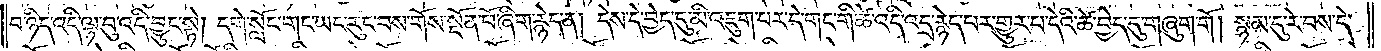བ་ཉིད་འདི་ལྟ་བུ་འདི་བྱུང་སྟེ། དགེ་སློང་གང་ཡང་རུང་བས་གོས་སྔོན་པོ་ཞིག་རྙེད་ན། དེས་དེ་བྱེད་དུ་མི་འཇུག་པར་དེ་གང་གི་ཚེ་འདི་འདྲ་རྙེད་པར་གྱུར་པ་དེའི་ཚེ་བྱེད་དུ་གཞུག་གོ། སྙམ་དུ་རེ་བས་དེ་
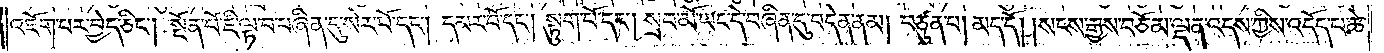འཇོག་པར་བྱེད་ཅིང༌། སྔོན་པོ་ཇི་ལྟ་བ་བཞིན་དུ་སེར་པོ་དང༌། དམར་པོ་དང༌། སྟུག་པོ་དང༌། སྲབ་མོ་ཡང་དེ་བཞིན་དུ་བདེན་ནམ། བཙུན་པ། མད་དོ། །སངས་རྒྱས་བཅོམ་ལྡན་འདས་ཀྱིས་འདོད་པ་ཆེ་
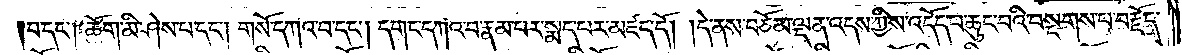བ་དང༌། ཆོག་མི་ཤེས་པ་དང༌། གསོ་དཀའ་བ་དང༌། དགང་དཀའ་བ་རྣམ་པར་སྨད་པར་མཛད་དོ། །དེ་ནས་བཅོམ་ལྡན་འདས་ཀྱིས་འདོད་པ་ཆུང་བའི་བསྔགས་པ་བརྗོད་
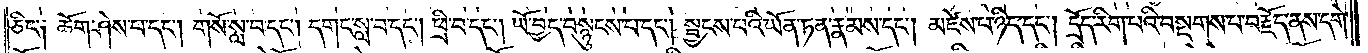ཅིང༌། ཆོག་ཤེས་པ་དང༌། གསོ་སླ་བ་དང༌། དགང་སླ་བ་དང༌། ཕྲི་བ་དང༌། ཡོ་བྱད་བསྙུངས་པ་དང༌། སྦྱངས་པའི་ཡོན་ཏན་རྣམས་དང༌། མཛེས་པ་ཉིད་དང༌། དྲོད་རིག་པའི་བསྔགས་པ་བརྗོད་ནས་དགེ་
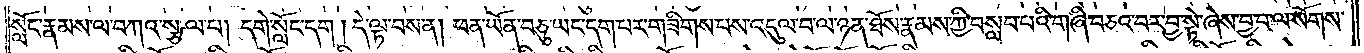སློང་རྣམས་ལ་བཀའ་སྩལ་པ། དགེ་སློང་དག །དེ་ལྟ་བས་ན། ཕན་ཡོན་བཅུ་ཡང་དག་པར་གཟིགས་པས་འདུལ་བ་ལ་ཉན་ཐོས་རྣམས་ཀྱིས་བསླབ་པའི་གཞི་བཅའ་བར་བྱ་སྟེ་ཞེས་བྱ་བ་ལ་སོགས་
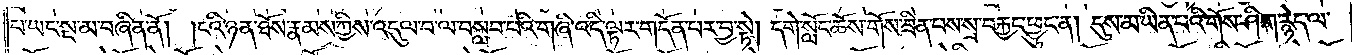པ་ཡང་སྔ་མ་བཞིན་ནོ། །ངའི་ཉན་ཐོས་རྣམས་ཀྱིས་འདུལ་བ་ལ་བསླབ་པའི་གཞི་འདི་ལྟར་གདོན་པར་བྱ་སྟེ། དགེ་སློང་ཆོས་གོས་ཟིན་པས་སྲ་བརྐྱང་ཕྱུར་ན། དུས་མ་ཡིན་པའི་གོས་ཤིག་རྙེད་ལ་
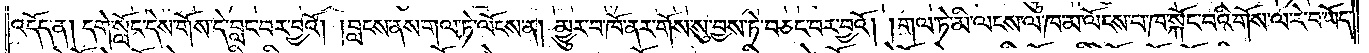འདོད་ན། དགེ་སློང་དེས་གོས་དེ་བླང་བར་བྱའོ། །བླངས་ནས་གལ་ཏེ་ལོངས་ན། མྱུར་བ་ཁོ་ནར་གོས་སུ་བྱས་ཏེ་བཅང་བར་བྱའོ། །གལ་ཏེ་མི་ལངས་ལ་ཁ་མ་ལོངས་པ་ཁ་སྐོང་བའི་གོས་ལ་རེ་བ་ཡོད་
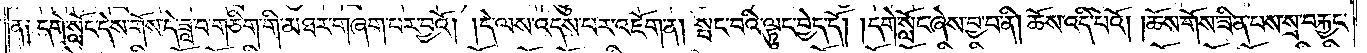ན༑ དགེ་སློང་དེས་གོས་དེ་ཟླ་བ་གཅིག་གི་མཐར་གཞག་པར་བྱའོ། །དེ་ལས་འདས་པར་འཇོག་ན། སྤང་བའི་ལྟུང་བྱེད་དོ། །དགེ་སློང་ཞེས་བྱ་བ་ནི། ཆོས་འདི་པའོ། །ཆོས་གོས་ཟིན་པས་སྲ་བརྐྱང་
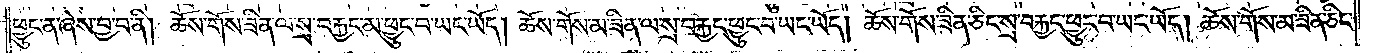ཕྱུང་ན་ཞེས་བྱ་བ་ནི། ཆོས་གོས་ཟིན་ལ་སྲ་བརྐྱང་མ་ཕྱུང་བ་ཡང་ཡོད། ཆོས་གོས་མ་ཟིན་ལ་སྲ་བརྐྱང་ཕྱུང་བ་ཡང་ཡོད། ཆོས་གོས་ཟིན་ཅིང་སྲ་བརྐྱང་ཕྱུང་བ་ཡང་ཡོད། ཆོས་གོས་མ་ཟིན་ཅིང་
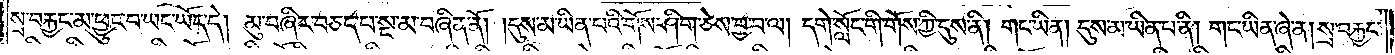སྲ་བརྐྱང་མ་ཕྱུང་བ་ཡང་ཡོད་དེ། མུ་བཞིར་བཅད་པ་སྔ་མ་བཞིན་ནོ། །དུས་མ་ཡིན་པའི་གོས་ཤིག་ཅེས་བྱ་བ་ལ། དགེ་སློང་གི་གོས་ཀྱི་དུས་ནི། གང་ཡིན། དུས་མ་ཡིན་པ་ནི། གང་ཡིན་ཞེ་ན། སྲ་བརྐྱང་
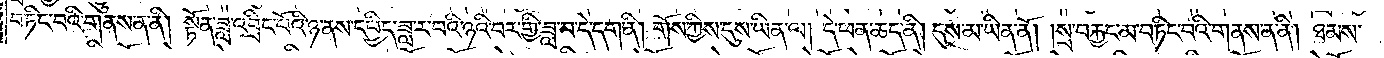བཏིང་བའི་གནས་ན་ནི། སྟོན་ཟླ་འབྲིང་པོའི་ཉ་ནས་དཔྱིད་ཟླ་ར་བའི་ཉའི་བར་གྱི་ཟླ་བ་དེ་དག་ནི། གོས་ཀྱིས་དུས་ཡིན་ལ། དེ་ཕན་ཆད་ནི། དུས་མ་ཡིན་ནོ། །སྲ་བརྐྱང་མ་བཏིང་བའི་གནས་ན་ནི། ཐམས་
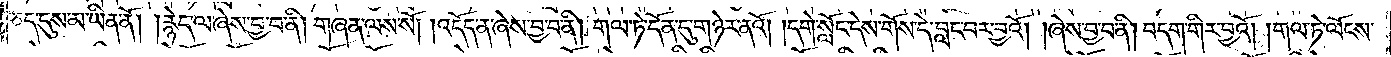ཅད་དུས་མ་ཡིན་ནོ། །རྙེད་ལ་ཞེས་བྱ་བ་ནི། གཞན་ལས་སོ། །འདོད་ན་ཞེས་བྱ་བ་ནི། གལ་ཏེ་དོན་དུ་གཉེར་ནའོ། །དགེ་སློང་དེས་གོས་དེ་བླང་བར་བྱའོ། །ཞེས་བྱ་བ་ནི། བདག་གིར་བྱའོ། །གལ་ཏེ་ལོངས་
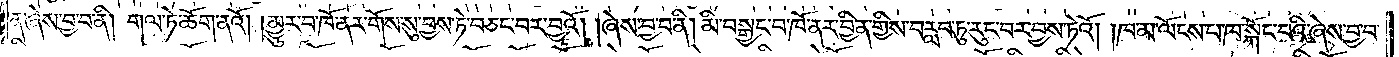ན་ཞེས་བྱ་བ་ནི། གལ་ཏེ་ཆོག་ནའོ། །མྱུར་བ་ཁོ་ནར་གོས་སུ་བྱས་ཏེ་བཅང་བར་བྱའོ། །ཞེས་བྱ་བ་ནི། མི་བསྒྱང་བ་ཁོ་ནར་བྱིན་གྱིས་བརླབ་ཏུ་རུང་བར་བྱས་ཏེའོ། །ཁ་མ་ལོངས་པ་ཁ་སྐོང་བའི་ཞེས་བྱ་བ་
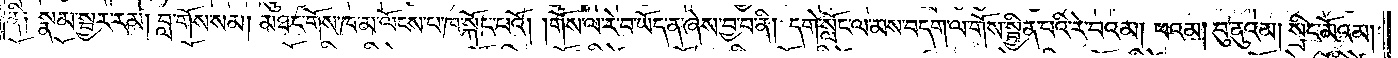ནི། སྣམ་སྦྱར་རམ། བླ་གོས་སམ། མཐང་གོས་ཁ་མ་ལོངས་པ་ཁ་སྐོང་བའོ། །གོས་ལ་རེ་བ་ཡོད་ན་ཞེས་བྱ་བ་ནི། དགེ་སློང་ལ་མས་བདག་ལ་གོས་སྦྱིན་པའི་རེ་བའམ། ཕའམ། བུ་ནུའམ། སྲིང་མོའམ།
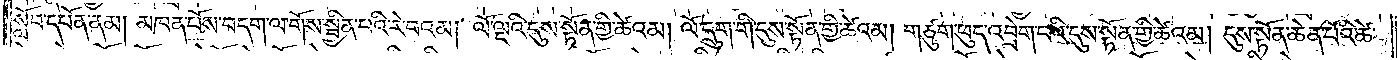སློབ་དཔོན་ནམ། མཁན་པོས་བདག་ལ་གོས་སྦྱིན་པའི་རེ་བའམ། ལོ་ལྔའི་དུས་སྟོན་གྱི་ཚེའམ། ལོ་དྲུག་གི་དུས་སྟོན་གྱི་ཚེའམ། གཙུག་ཕུད་འབྲེག་པའི་དུས་སྟོན་གྱི་ཚེའམ། དུས་སྟོན་ཆེན་པོའི་ཆེ་
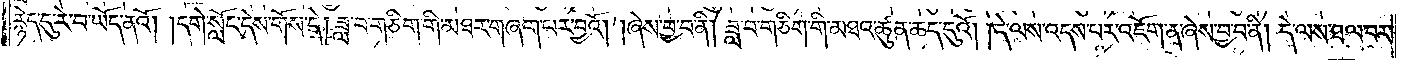རྙེད་དུ་རེ་བ་ཡོད་ནའོ། །དགེ་སློང་དེས་གོས་དེ། ཟླ་བ་གཅིག་གི་མཐར་གཞག་པར་བྱའོ། །ཞེས་བྱ་བ་ནི། ཟླ་བ་གཅིག་གི་མཐའ་ཚུན་ཆད་དུའོ། །དེ་ལས་འདས་པར་འཇོག་ན་ཞེས་བྱ་བ་ནི། དེ་ལས་ཐལ་བར་
